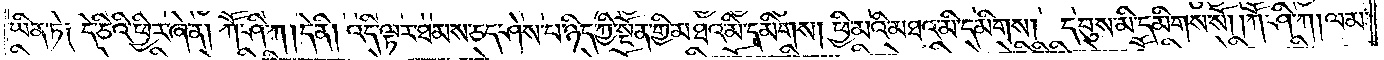ཡིན་ཏེ། དེ་ཅིའི་ཕྱིར་ཞེ་ན། ཀཽ་ཤི་ཀ། དེ་ནི། འདི་ལྟར་ཐམས་ཅད་ཤེས་པ་ཉིད་ཀྱི་སྔོན་གྱི་མཐའ་མི་དམིགས། ཕྱི་མའི་མཐའ་མི་དམིགས། དབུས་མི་དམིགས་སོ། །ཀཽ་ཤི་ཀ། ལམ་
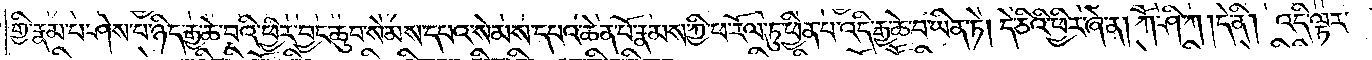གྱི་རྣམ་པ་ཤེས་པ་ཉིད་རྒྱ་ཆེ་བའི་ཕྱིར་བྱང་ཆུབ་སེམས་དཔའ་སེམས་དཔའ་ཆེན་པོ་རྣམས་ཀྱི་ཕ་རོལ་ཏུ་ཕྱིན་པ་འདི་རྒྱ་ཆེ་བ་ཡིན་ཏེ། དེ་ཅིའི་ཕྱིར་ཞེ་ན། ཀཽ་ཤི་ཀ །དེ་ནི། འདི་ལྟར་
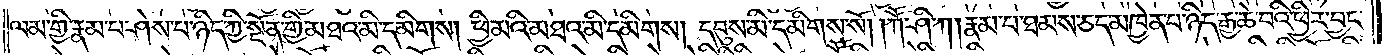ལམ་གྱི་རྣམ་པ་ཤེས་པ་ཉིད་ཀྱི་སྔོན་གྱི་མཐའ་མི་དམིགས། ཕྱི་མའི་མཐའ་མི་དམིགས། དབུས་མི་དམིགས་སོ། །ཀཽ་ཤི་ཀ། རྣམ་པ་ཐམས་ཅད་མཁྱེན་པ་ཉིད་རྒྱ་ཆེ་བའི་ཕྱིར་བྱང་
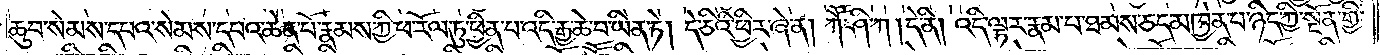ཆུབ་སེམས་དཔའ་སེམས་དཔའ་ཆེན་པོ་རྣམས་ཀྱི་ཕ་རོལ་ཏུ་ཕྱིན་པ་འདི་རྒྱ་ཆེ་བ་ཡིན་ཏེ། དེ་ཅིའི་ཕྱིར་ཞེ་ན། ཀཽ་ཤི་ཀ །དེ་ནི། འདི་ལྟར་རྣམ་པ་ཐམས་ཅད་མཁྱེན་པ་ཉིད་ཀྱི་སྔོན་གྱི་
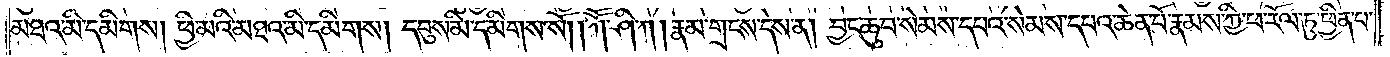མཐའ་མི་དམིགས། ཕྱི་མའི་མཐའ་མི་དམིགས། དབུས་མི་དམིགས་སོ། །ཀཽ་ཤི་ཀ། རྣམ་གྲངས་དེས་ན། བྱང་ཆུབ་སེམས་དཔའ་སེམས་དཔའ་ཆེན་པོ་རྣམས་ཀྱི་ཕ་རོལ་ཏུ་ཕྱིན་པ་
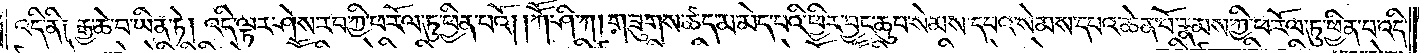འདི་ནི། རྒྱ་ཆེ་བ་ཡིན་ཏེ། འདི་ལྟར་ཤེས་རབ་ཀྱི་ཕ་རོལ་ཏུ་ཕྱིན་པའོ། །ཀཽ་ཤི་ཀ། གཟུགས་ཚད་མེད་པའི་ཕྱིར་བྱང་ཆུབ་སེམས་དཔའ་སེམས་དཔའ་ཆེན་པོ་རྣམས་ཀྱི་ཕ་རོལ་ཏུ་ཕྱིན་པ་འདི་
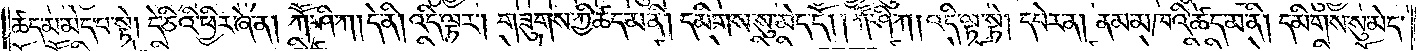ཚད་མེད་པ་སྟེ། དེ་ཅིའི་ཕྱིར་ཞེ་ན། ཀཽ་ཤི་ཀ། དེ་ནི། འདི་ལྟར། གཟུགས་ཀྱི་ཚད་ནི། དམིགས་སུ་མེད་དོ། །ཀཽ་ཤི་ཀ། འདི་ལྟ་སྟེ། དཔེར་ན། ནམ་མཁའི་ཚད་ནི། དམིགས་སུ་མེད་
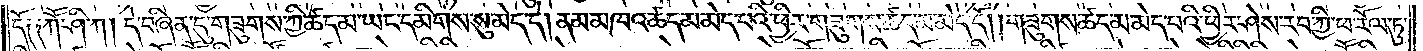དོ། །ཀཽ་ཤི་ཀ། དེ་བཞིན་དུ་གཟུགས་ཀྱི་ཆད་ཀྱང་དམིགས་སུ་མེད་དེ། ནམ་མཁའ་ཚད་མེད་པའི་ཕྱིར་གཟུགས་ཚད་མེད་དོ། །གཟུགས་ཚད་མེད་པའི་ཕྱིར་ཤེས་རབ་ཀྱི་ཕ་རོལ་ཏུ་
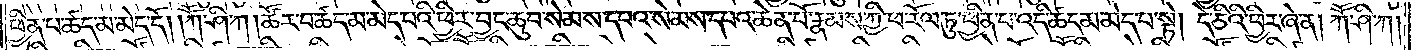ཕྱིན་པ་ཚད་མེད་དོ། །ཀཽ་ཤི་ཀ། ཚོར་བ་ཚད་མེད་པའི་ཕྱིར་བྱང་ཆུབ་སེམས་དཔའ་སེམས་དཔའ་ཆེན་པོ་རྣམས་ཀྱི་ཕ་རོལ་ཏུ་ཕྱིན་པ་འདི་ཚད་མེད་པ་སྟེ། དེ་ཅིའི་ཕྱིར་ཞེ་ན། ཀཽ་ཤི་ཀ།
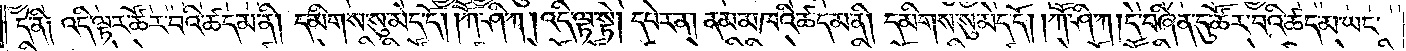དེ་ནི། འདི་ལྟར་ཚོར་བའི་ཚད་མ་ནི། དམིགས་སུ་མེད་དོ། །ཀཽ་ཤི་ཀ། འདི་ལྟ་སྟེ། དཔེར་ན། ནམ་མཁའི་ཚད་མ་ནི། དམིགས་སུ་མེད་དོ། །ཀཽ་ཤི་ཀ། དེ་བཞིན་དུ་ཚོར་བའི་ཚད་མ་ཡང་
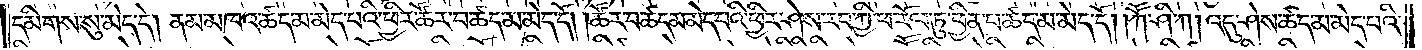དམིགས་སུ་མེད་དེ། ནམ་མཁའ་ཚད་མེད་པའི་ཕྱིར་ཚོར་བ་ཚད་མེད་དོ། །ཚོར་བ་ཚད་མེད་པའི་ཕྱིར་ཤེས་རབ་ཀྱི་ཕ་རོལ་ཏུ་ཕྱིན་པ་ཚད་མེད་དོ། །ཀཽ་ཤི་ཀ། འདུ་ཤེས་ཚད་མེད་པའི་
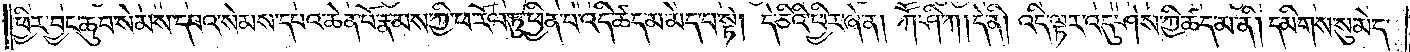ཕྱིར་བྱང་ཆུབ་སེམས་དཔའ་སེམས་དཔའ་ཆེན་པོ་རྣམས་ཀྱི་ཕ་རོལ་ཏུ་ཕྱིན་པ་འདི་ཚད་མེད་པ་སྟེ། དེ་ཅིའི་ཕྱིར་ཞེ་ན། ཀཽ་ཤི་ཀ། དེ་ནི། འདི་ལྟར་འདུ་ཤེས་ཀྱི་ཚད་མ་ནི། དམིགས་སུ་མེད་
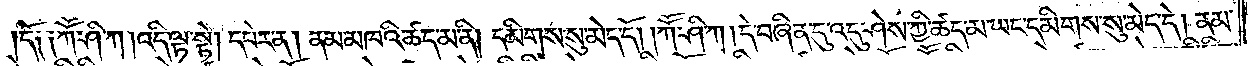དོ། །ཀཽ་ཤི་ཀ། འདི་ལྟ་སྟེ། དཔེར་ན། ནམ་མཁའི་ཚད་མ་ནི། དམིགས་སུ་མེད་དོ། །ཀཽ་ཤི་ཀ། དེ་བཞིན་དུ་འདུ་ཤེས་ཀྱི་ཚད་ཀྱང་དམིགས་སུ་མེད་དེ། ནམ་
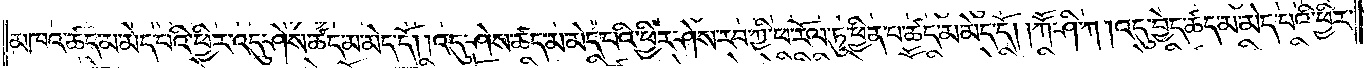མཁའ་ཚད་མ་མེད་པའི་ཕྱིར་འདུ་ཤེས་ཚད་མེད་དོ། །འདུ་ཤེས་ཚད་མེད་པའི་ཕྱིར་ཤེས་རབ་ཀྱི་ཕ་རོལ་ཏུ་ཕྱིན་པ་ཚད་མེད་དོ། །ཀཽ་ཤི་ཀ། འདུ་བྱེད་ཚད་མེད་པའི་ཕྱིར་
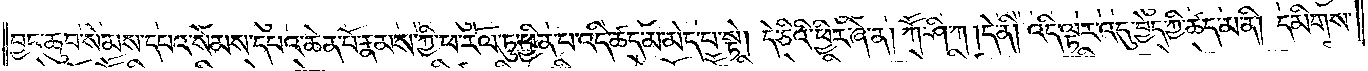བྱང་ཆུབ་སེམས་དཔའ་སེམས་དཔའ་ཆེན་པོ་རྣམས་ཀྱི་ཕ་རོལ་ཏུ་ཕྱིན་པ་འདི་ཚད་མ་མེད་པ་སྟེ། དེ་ཅིའི་ཕྱིར་ཞེ་ན། ཀཽ་ཤི་ཀ། དེ་ནི། འདི་ལྟར་འདུ་བྱེད་ཀྱི་ཚད་མ་ནི། དམིགས་
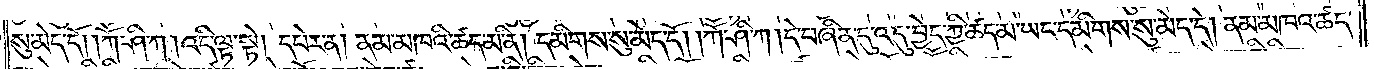སུ་མེད་དོ། །ཀཽ་ཤི་ཀ། འདི་ལྟ་སྟེ། དཔེར་ན། ནམ་མཁའི་ཚད་མ་ནི། དམིགས་སུ་མེད་དོ། །ཀཽ་ཤི་ཀ། དེ་བཞིན་དུ་འདུ་ཤེས་ཀྱི་ཚད་ཀྱང་དམིགས་སུ་མེད་དེ། ནམ་མཁའ་ཚད་
